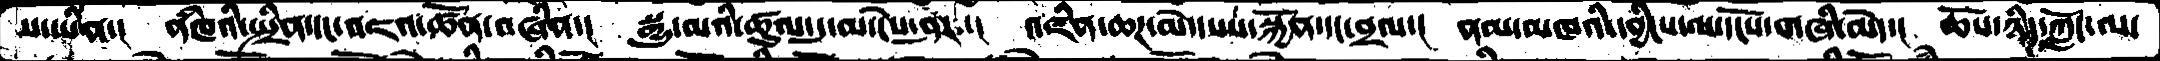ས་ཡིན་།  ནཾཁའི་སྤྲིན་དང་འཇའ་ཚོན་བཞིན་།  སྒྱུ་མའི་ཚུལ་དུ་མ་ངེས་ཤར་།  འཛིན་ཆཌ་མེད་པས་སྐྱོན་དང་བྲལ་།  ནམ་མཁའི་དབྱིངས་ལ་དངོས་གཞི་མེད་།  ཆོས་ཉིད་ཀློང་ལ་
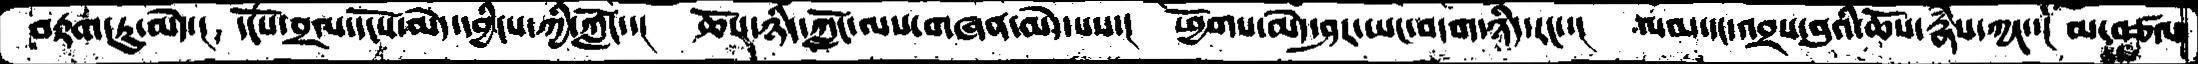བརྟག་ཏུ་མེད་།  དངོས་བྲལ་དངོས་མེད་དབྱིངས་ཀྱི་ཀློང་་།  ཆོས་ཉིད་ཀློང་ལས་གཞན་མེད་པས་།  ཕྱོགས་མེད་ཤར་ཡང་བདག་ཉིད་རང་་།  ལམ་དང་འབྲས་བུའི་ཆོས་རྣཾས་ཀྱང་་།   མ་བཙལ
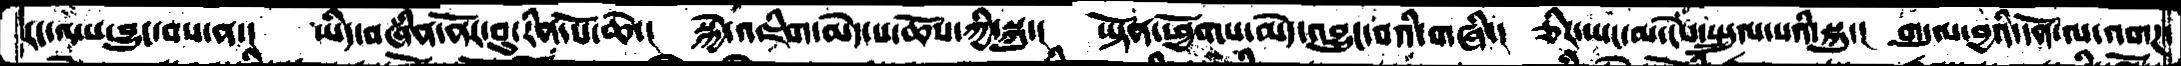རང་ལས་བྱུང་བས་ན་།   ཡིད་བཞིན་ནོར་བུ་རིན་པོ་ཆེ་།  སྐྱེ་འཇིག་མེད་པ་ཆོས་ཀྱི་སྐུ་།  ཡྟོན་ཕྱོགས་མེད་འབྱུང་བའི་གཞི་།  ཅིར་ཡང་མ་ངེས་སྤྲུལ་པའི་སྐུ་།  གདུལ་བྱའི་དོན་ལ་འགཌ་
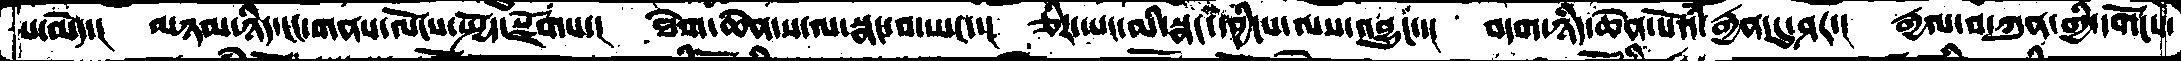པ་མེད་།  མཉམ་ཉིད་ངང་གནས་ལོངས་སྤྱོད་སྫོགས་།  ཐེག་ཆེན་ས་ལ་སྣང་བ་ཡང་་།  ཅིར་ཡང་མི་སྣང་དབྱིངས་ལས་འབྱུང་་།  བདག་ཉིད་ཆེན་པོའི་རྒྱན་དུ་ཤར་།   རྒྱལ་བ་ཀུན་གྱི་དགོངས་
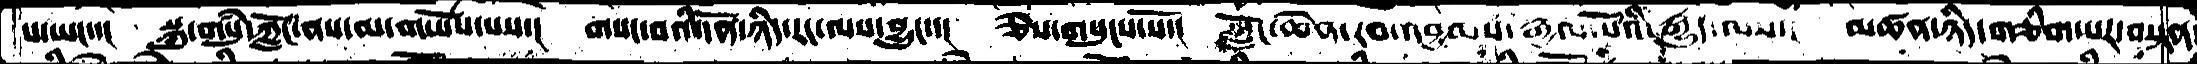པ་ཡང་་།  སྐུ་གསུཾ་ཀློང་ནས་མ་གཡོས་པས་།  གསང་བའི་དོན་ཉིད་རང་ལས་བྱུང་་།  ཅེས་གསུངས་སོ་།  ཀློང་ཆེན་རབ་འབྱམས་རྒྱལ་པོའི་རྒྱུད་ལས་།  མཚན་ཉིད་གཅིག་པར་བསྟན
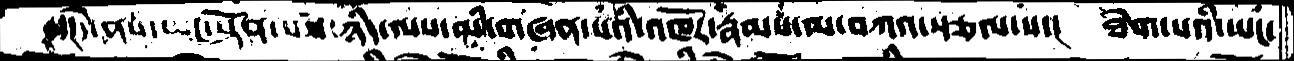་།དེ་ནས་ཡང་སྟོན་པས་ཉིད་ལས་མི་གཞན་པའི་འཁོར་རྣམས་ལ་བཀའ་སྩལ་པ་།   ཐེག་པའི་ཡང་
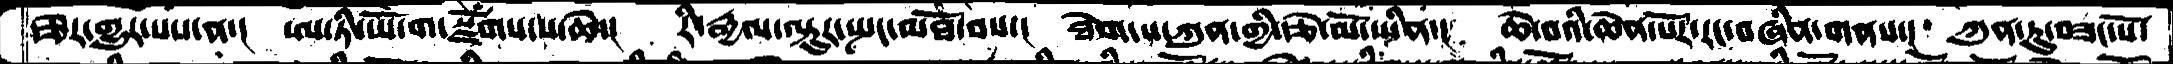རྩེར་གྱུར་པས་ན་།  ཨ་ཏི་ཡོ་ག་སྫོགས་པ་ཆེ་།  རི་རྒྱལ་ལྟུར་སྤང་མཐོ་བས་།  ཐེག་པ་ཀུན་གྱི་རྩེ་མོ་ཡིན་།  ཆེ་བའི་ཆེན་པོར་རང་བཞིན་གནས་།  ཀུན་ཏུ་བཟང་པོ་
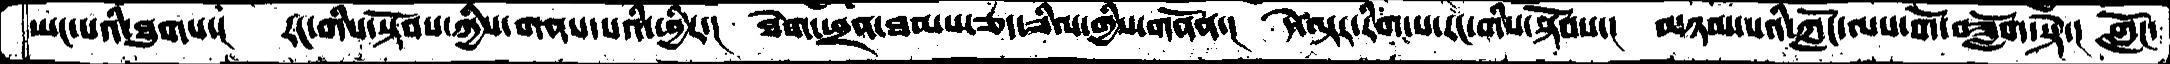ཡང་པའི་ཐུགས་།  རང་གིས་སྟོབས་ཀྱིས་གནས་པའི་ཕྱིར་།  ཐེག་ཕྲན་ཐམས་ཅད་ཟིལ་གྱིས་གནོན་།  དེ་ལྟར་རིག་པ་རང་གིས་སྟོབས་།  མཉམ་པའི་ཀློང་ལས་གོ་བཟློག་སྟེ་།  གློང་
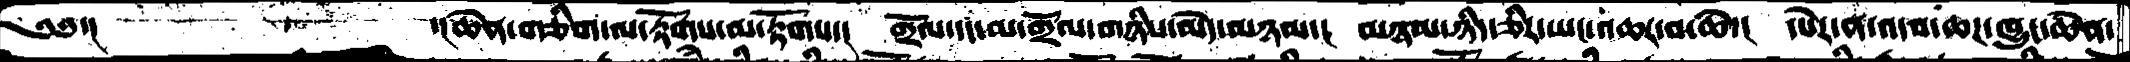༄༅་།           ་།ཆེན་གཅིག་ལ་རྟོགས་མ་རྟོགས་།  གྲོལ་དང་མ་གྲོལ་གཉིས་མེད་མཉམ་།  མཉམ་ཉིད་ཅིར་ཡང་འཆར་བ་ཆེ་།  དཔེར་ན་འདབ་ཆཌ་ཁྱུང་ཆེན་
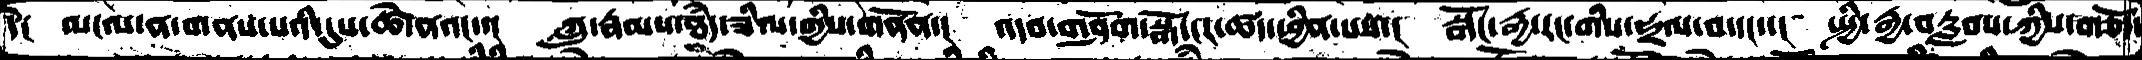དེ༑   མངལ་ན་གནས་པའི་དུས་ཚེ་ནའང་་།  ཀླུ་རྣམས་ཐཾད་ཟིལ་གྱིས་གནོན་།  འདབ་གཤོག་སྒོ་ངར་ཚད་ཕྱིན་པས་།  སྒོང་རྒྱ་རང་གིས་ཧྲལ་བ་དང་་།  སྤྱི་རྒྱ་བརླབས་ཀྱིས་གཅོད་
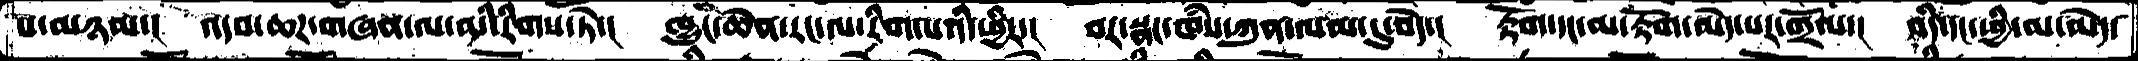པ་མཉམ་།  འདབ་ཆཌ་གཞན་ལ་མི་རིགས་ཏེ་།   ཁྱུང་ཆེན་རང་ལ་རིག་པའི་ཕྱིར་།  བར་སྣང་ཁཾས་ཀུན་ལམ་དུ་བདེ་།  རྟོག་དང་མ་རྟོག་མེད་པར་གྲོལ་།  འདི་དང་ཕྱི་མ་མེད་
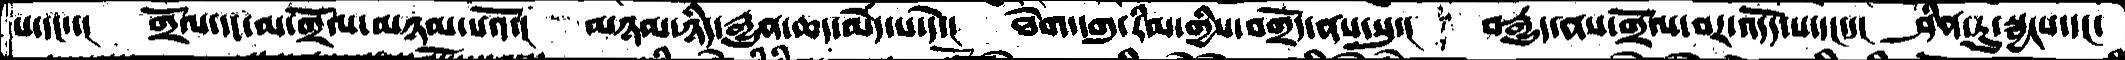པ་དང་་།  གྲོལ་དང་མ་གྲོལ་མཉམ་པའོ་།  མཉམ་ཉིད་རྒྱུན་ཆད་མེད་པ་དེ་།   ཐེག་དགུ་རིམ་གྱིས་བགྲོད་ནས་སུ་།   བརྒྱུད་ནས་གྲོལ་བར་འདོད་པ་དང་་།  ཤིན་ཏུ་སྦྱངས་དང་
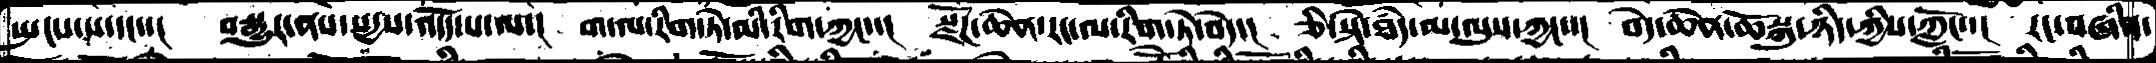སྤངས་པ་དང་་།   བསྒྱུར་ནས་སདྱས་འདོད་པ་ལ་།  གང་ལ་རིག་ཏེ་མི་རིག་ཀྱང་་།  སྫོཌ་ཆེན་རང་ལ་རིག་ཏེ་བདེ་།  ཅི་སྟེ་ཐཾད་མ་ལུས་ཀྱང་་།  བདེ་ཆེན་ཆོསྐུ་ཉིད་ཀྱིས་ཀློང་་།  རང་བཞིན་
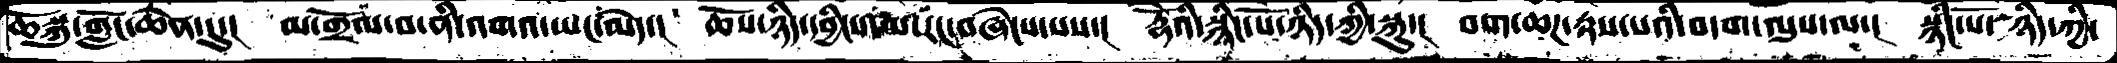ཆོསྐུ་གློང་ཆེན་དུ་།   མ་གྲོལ་བ་ནི་འགའ་ཡང་མེད་།  ཆོས་ཉིད་དབྱིངས་ལ་རང་བཞེངས་པས་།  རྡོེའི་སྙིང་པོ་ཉིད་ཀྱི་སྐུ་།  བག་ཆཌ་རྟས་པའི་བདག་ལུས་ལ་།  སྙིང་པོ་ཉིད་ཀྱི་
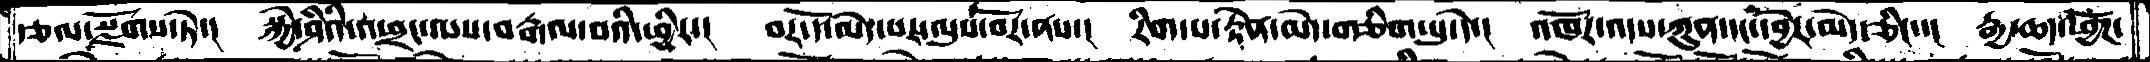རྩལ་སྫོགས་ཏེ་།  སྐྱེ་ཤིའི་འཕྲང་ལས་བརྒལ་བའི་ཕྱིར་།  བར་དོ་མེད་པར་ལུས་བོར་ནས་།  རིག་པ་རྟེན་མེད་གཅིག་པུ་དེ་།  འཁོར་འདས་ཀུན་དང་དབྱེར་མེད་ཅིང་་།  རྒྱ་ཆད་ཕྱོཌ་
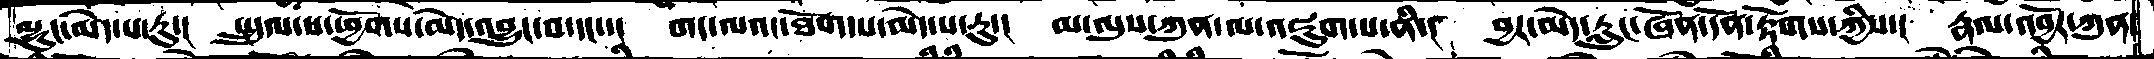ལྷུང་མེད་པ་རུ་།   སྤྲུལ་པ་ཕྱོགས་མེད་འབྱུང་བ་དང་་།  གང་ལའང་ཐོག་པ་མེད་པ་རུ་།  མ་ལུས་ཀུན་ལ་འཇུག་པ་ནི་།  བྱར་མེད་རླུང་ཞོན་དོན་རྟོགས་ཀྱིས་།  རྣལ་འབྱོར་ཀུན་
